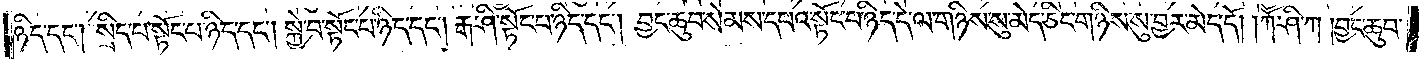ཉིད་དང༌། སྲིད་པ་སྟོང་པ་ཉིད་དང༌། སྐྱེ་བ་སྟོང་པ་ཉིད་དང༌། རྒ་ཤི་སྟོང་པ་ཉིད་དང༌། བྱང་ཆུབ་སེམས་དཔའ་སྟོང་པ་ཉིད་དེ་ལ་གཉིས་སུ་མེད་ཅིང་གཉིས་སུ་བྱར་མེད་དོ། །ཀཽ་ཤི་ཀ །བྱང་ཆུབ་
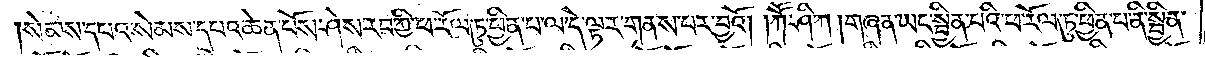སེམས་དཔའ་སེམས་དཔའ་ཆེན་པོས་ཤེས་རབ་ཀྱི་ཕ་རོལ་ཏུ་ཕྱིན་པ་ལ་དེ་ལྟར་གནས་པར་བྱའོ། །ཀཽ་ཤི་ཀ །གཞན་ཡང་སྦྱིན་པའི་ཕ་རོལ་ཏུ་ཕྱིན་པ་ནི་སྦྱིན་
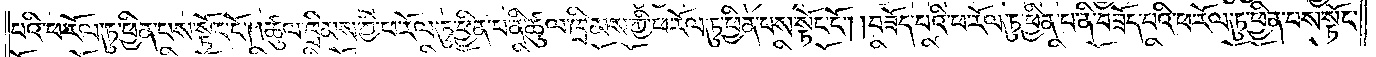པའི་ཕ་རོལ་ཏུ་ཕྱིན་པས་སྟོང་ངོ༌། །ཚུལ་ཁྲིམས་ཀྱི་ཕ་རོལ་ཏུ་ཕྱིན་པ་ནི་ཚུལ་ཁྲིམས་ཀྱི་ཕ་རོལ་ཏུ་ཕྱིན་པས་སྟོང་ངོ༌། །བཟོད་པའི་ཕ་རོལ་ཏུ་ཕྱིན་པ་ནི་བཟོད་པའི་ཕ་རོལ་ཏུ་ཕྱིན་པས་སྟོང་
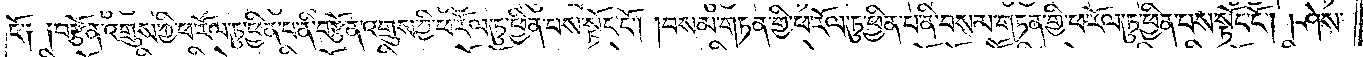ངོ༌༏ ༏བརྩོན་འགྲུས་ཀྱི་ཕ་རོལ་ཏུ་ཕྱིན་པ་ནི་བརྩོན་འགྲུས་ཀྱི་ཕ་རོལ་ཏུ་ཕྱིན་པས་སྟོང་ངོ༌། །བསམ་གཏན་གྱི་ཕ་རོལ་ཏུ་ཕྱིན་པ་ནི་བསམ་གཏན་གྱི་ཕ་རོལ་ཏུ་ཕྱིན་པས་སྟོང་ངོ༌། །ཤེས་
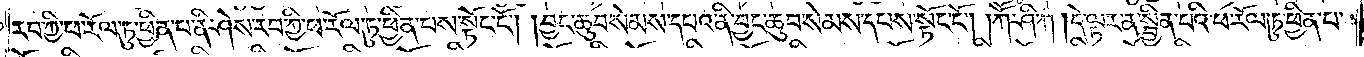རབ་ཀྱི་ཕ་རོལ་ཏུ་ཕྱིན་པ་ནི་ཤེས་རབ་ཀྱི་ཕ་རོལ་ཏུ་ཕྱིན་པས་སྟོང་ངོ༌། །བྱང་ཆུབ་སེམས་དཔའ་ནི་བྱང་ཆུབ་སེམས་དཔས་སྟོང་ངོ༌། །ཀཽ་ཤི་ཀ །དེ་ལྟར་ན་སྦྱིན་པའི་ཕ་རོལ་ཏུ་ཕྱིན་པ་
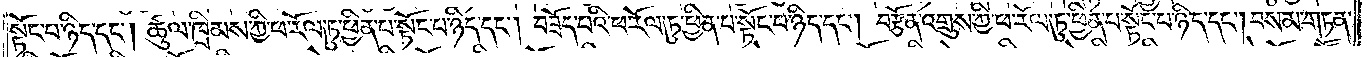སྟོང་པ་ཉིད་དང༌། ཚུལ་ཁྲིམས་ཀྱི་ཕ་རོལ་ཏུ་ཕྱིན་པ་སྟོང་པ་ཉིད་དང༌། བཟོད་པའི་ཕ་རོལ་ཏུ་ཕྱིན་པ་སྟོང་པ་ཉིད་དང༌། བརྩོན་འགྲུས་ཀྱི་ཕ་རོལ་ཏུ་ཕྱིན་པ་སྟོང་པ་ཉིད་དང༌། བསམ་གཏན་
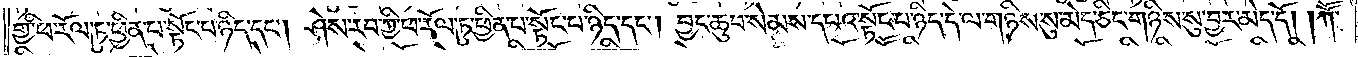གྱི་ཕ་རོལ་ཏུ་ཕྱིན་པ་སྟོང་པ་ཉིད་དང༌། ཤེས་རབ་ཀྱི་ཕ་རོལ་ཏུ་ཕྱིན་པ་སྟོང་པ་ཉིད་དང༌། བྱང་ཆུབ་སེམས་དཔའ་སྟོང་པ་ཉིད་དེ་ལ་གཉིས་སུ་མེད་ཅིང་གཉིས་སུ་བྱར་མེད་དོ། །ཀཽ་
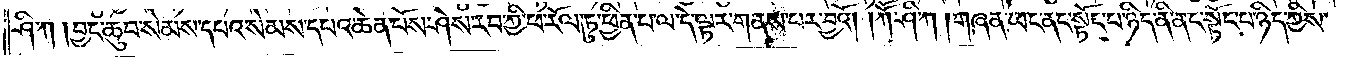ཤི་ཀ །བྱང་ཆུབ་སེམས་དཔའ་སེམས་དཔའ་ཆེན་པོས་ཤེས་རབ་ཀྱི་ཕ་རོལ་ཏུ་ཕྱིན་པ་ལ་དེ་ལྟར་གནས་པར་བྱའོ། །ཀཽ་ཤི་ཀ །གཞན་ཡང་ནང་སྟོང་པ་ཉིད་ནི་ནང་སྟོང་པ་ཉིད་ཀྱིས་
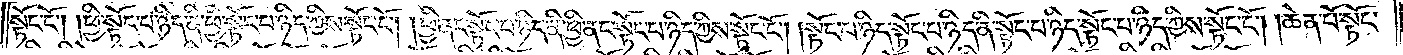སྟོང་ངོ༌། །ཕྱི་སྟོང་པ་ཉིད་ནི་ཕྱི་སྟོང་པ་ཉིད་ཀྱིས་སྟོང་ངོ༌། །ཕྱི་ནང་སྟོང་པ་ཉིད་ནི་ཕྱི་ནང་སྟོང་པ་ཉིད་ཀྱིས་སྟོང་ངོ༌། །སྟོང་པ་ཉིད་སྟོང་པ་ཉིད་ནི་སྟོང་པ་ཉིད་སྟོང་པ་ཉིད་ཀྱིས་སྟོང་ངོ༌། །ཆེན་པོ་སྟོང་
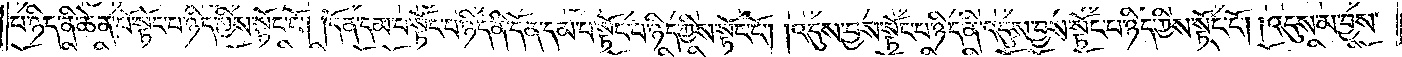པ་ཉིད་ནི་ཆེན་པོ་སྟོང་པ་ཉིད་ཀྱིས་སྟོང་ངོ༌། །དོན་དམ་པ་སྟོང་པ་ཉིད་ནི་དོན་དམ་པ་སྟོང་པ་ཉིད་ཀྱིས་སྟོང་ངོ༌། །འདུས་བྱས་སྟོང་པ་ཉིད་ནི་འདུས་བྱས་སྟོང་པ་ཉིད་ཀྱིས་སྟོང་ངོ༌། །འདུས་མ་བྱས་
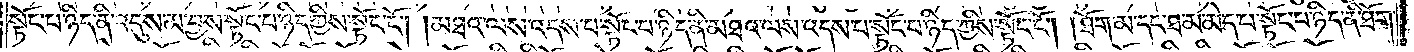སྟོང་པ་ཉིད་ནི་འདུས་མ་བྱས་སྟོང་པ་ཉིད་ཀྱིས་སྟོང་ངོ༌། །མཐའ་ལས་འདས་པ་སྟོང་པ་ཉིད་ནི་མཐའ་ལས་འདས་པ་སྟོང་པ་ཉིད་ཀྱིས་སྟོང་ངོ༌། །ཐོག་མ་དང་ཐ་མ་མེད་པ་སྟོང་པ་ཉིད་ནི་ཐོག་
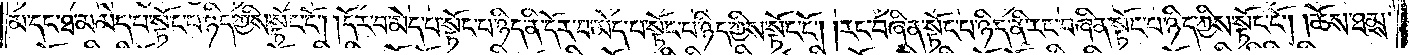མ་དང་ཐ་མ་མེད་པ་སྟོང་པ་ཉིད་ཀྱིས་སྟོང་ངོ༌། །དོར་བ་མེད་པ་སྟོང་པ་ཉིད་ནི་དོར་བ་མེད་པ་སྟོང་པ་ཉིད་ཀྱིས་སྟོང་ངོ༌། །རང་བཞིན་སྟོང་པ་ཉིད་ནི་རང་བཞིན་སྟོང་པ་ཉིད་ཀྱིས་སྟོང་ངོ༌། །ཆོས་ཐམས་
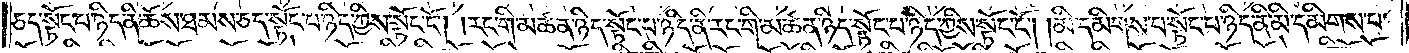ཅད་སྟོང་པ་ཉིད་ནི་ཆོས་ཐམས་ཅད་སྟོང་པ་ཉིད་ཀྱིས་སྟོང་ངོ༌། །རང་གི་མཚན་ཉིད་སྟོང་པ་ཉིད་ནི་རང་གི་མཚན་ཉིད་སྟོང་པ་ཉིད་ཀྱིས་སྟོང་ངོ༌། །མི་དམིགས་པ་སྟོང་པ་ཉིད་ནི་མི་དམིགས་པ་
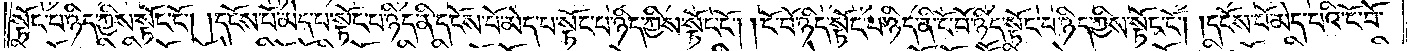སྟོང་པ་ཉིད་ཀྱིས་སྟོང་ངོ༌། །དངོས་པོ་མེད་པ་སྟོང་པ་ཉིད་ནི་དངོས་པོ་མེད་པ་སྟོང་པ་ཉིད་ཀྱིས་སྟོང་ངོ༌། །ངོ་བོ་ཉིད་སྟོང་པ་ཉིད་ནི་ངོ་བོ་ཉིད་སྟོང་པ་ཉིད་ཀྱིས་སྟོང་ངོ༌། །དངོས་པོ་མེད་པའི་ངོ་བོ་
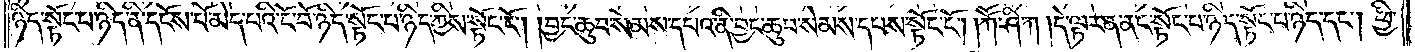ཉིད་སྟོང་པ་ཉིད་ནི་དངོས་པོ་མེད་པའི་ངོ་བོ་ཉིད་སྟོང་པ་ཉིད་ཀྱིས་སྟོང་ངོ༌། །བྱང་ཆུབ་སེམས་དཔའ་ནི་བྱང་ཆུབ་སེམས་དཔས་སྟོང་ངོ༌། །ཀཽ་ཤི་ཀ །དེ་ལྟར་ན་ནང་སྟོང་པ་ཉིད་སྟོང་པ་ཉིད་དང༌། ཕྱི་
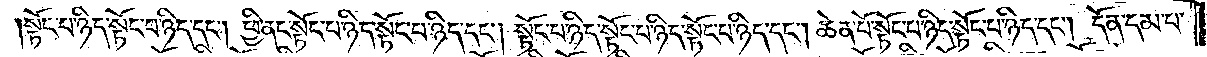སྟོང་པ་ཉིད་སྟོང་པ་ཉིད་དང༌། ཕྱི་ནང་སྟོང་པ་ཉིད་སྟོང་པ་ཉིད་དང༌། སྟོང་པ་ཉིད་སྟོང་པ་ཉིད་སྟོང་པ་ཉིད་དང༌། ཆེན་པོ་སྟོང་པ་ཉིད་སྟོང་པ་ཉིད་དང༌། དོན་དམ་པ་
